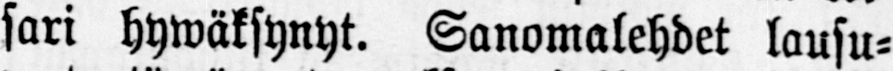sari hywäksynyt. Sanomalehdet lausu-
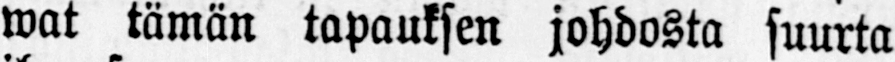wat tämän tapauksen johdosta suurta
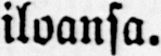iloansa.
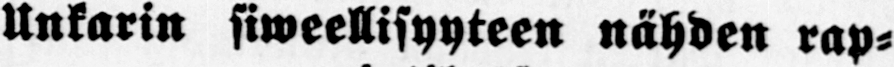Unkarin siweellisyyteen nähden rap-
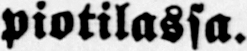piotilassa.
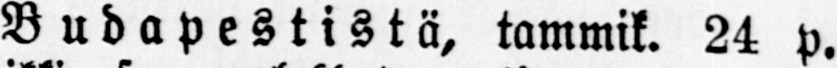Budapestistä, tammik. 24 p.
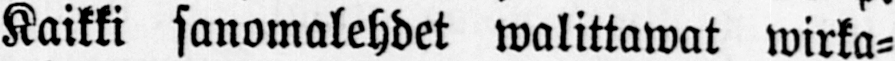Kaikki sanomalehdet walittawat wirka-
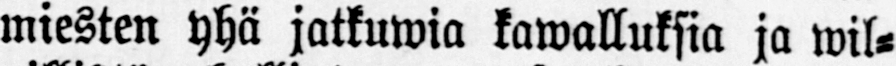miesten yhä jatkuwia kawalluksia ja wil-
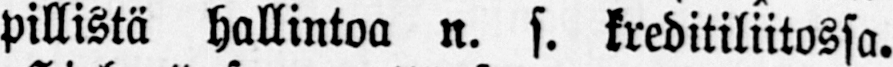pillistä hallintoa n. s. kreditiliitossa.
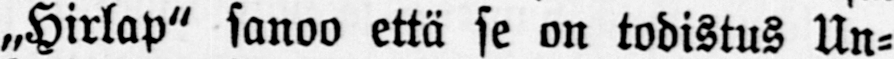„Hirlap" sanoo että se on todistus Un-
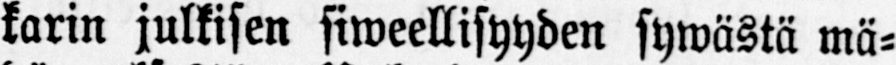karin julkisen siweellisyyden sywästä mä-
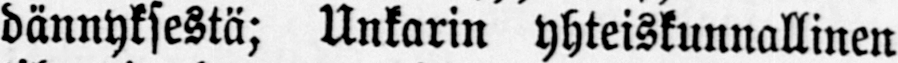dännyksestä; Unkarin yhteiskunnallinen
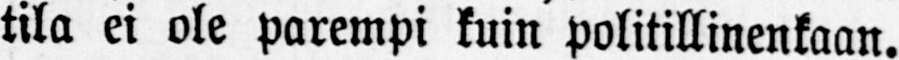tila ei ole parempi kuin politillinenkaan.
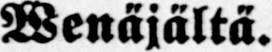Wenäjältä.
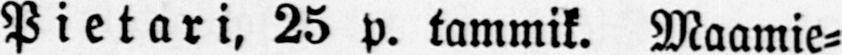Pietari, 25 p. tammik. Maamie-
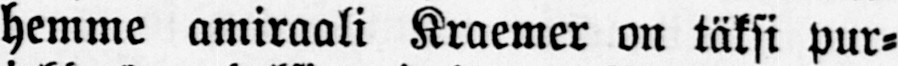hemme amiraali Kraemer on täksi pur-
